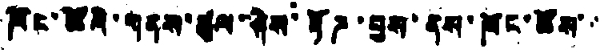ཁོང་ཚོའི་གནས་ཚུལ་ཤེས་རྟོཌ་བྱས་ནས་ཁོང་ཚོས་་
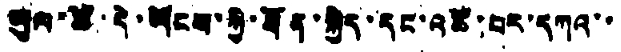ཡུལ་ཚོ་དེ་ཡོངས་ཀྱི་ཐོན་སྐྱེད་དང་འཚོ་བར་དཀའ་་
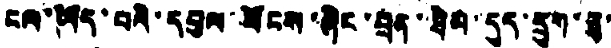ངལ་ཡོད་པའི་དབུལ་ཕོངས་ཞིང་བྲན་ཐེམ་དུད་དྲུག་ཅུ་
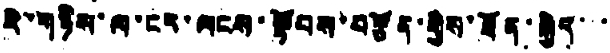རེ་གཉིས་ལ་ངར་ལངས་སྟོབས་བརྩོན་གྱིས་ཐོན་སྐྱེད་་་
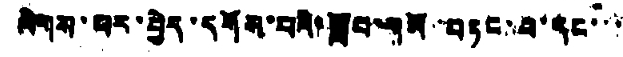ལེགས་ལར་བྱེར་དགོས་པའི་སློབ་གསོ་བཏང་བ་དང་་་
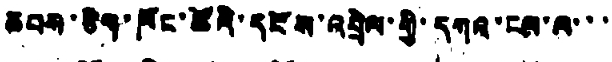ཆབས་ཅིག་ཁོང་ཚོའི་དངས་འབྲེལ་གྱི་དགའ་ངལ་ལ་་་
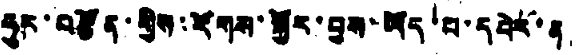ཧུར་བརྩོན་གྱིས་རོགས་སྐྱོར་བྱས་ཡོད་པ་དཔེར་ན།
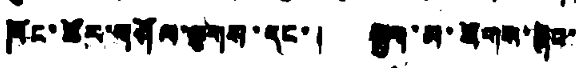ཁོང་ཚོར་གཤོལ་ལྕགས་དང་། སྦྱག་མ་སོགས་ཞིང་་་
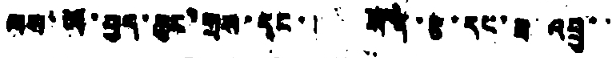ལས་ཡོ་བྱད་ཆུང་གྲས་དང་། སོན་རྩ་དང་ཟ་འབྲུ་་
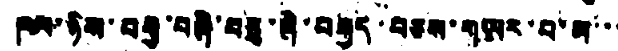ཁས་ཉིས་བརྒྱ་བཞི་བཅུ་ཞེ་བརྒྱད་བཅས་གཡར་བ་མ་་་
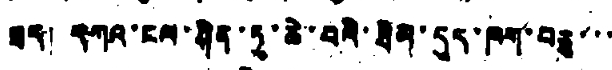ཟད། དཀའ་ངལ་ཤིན་ཏུ་ཆེ་བའི་ཐེམ་དུད་ཁག་བཅུ་་་
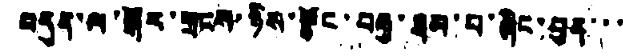བདུན་ལ་སྒོར་གྲངས་ཉིས་སྟོང་བརྒྱ་ཐམ་པ་ཞིང་བུན་་་
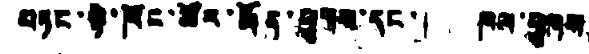བཏང་སྟེ་ཁོང་ཚོར་རྨོན་ཕྱུགས་དང་། ཁལ་ཕྱུགས
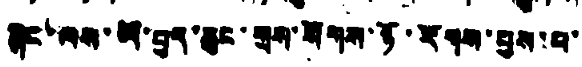ཞིང་ལས་ཡོ་བྱད་ཆུང་གྲས་སོགས་ཉོ་རོགས་བྱས་པ་
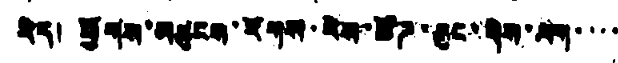རེད། ཕྱོགས་མཚུངས་རོགས་རེས་ཚོཌ་ཆུང་གིས་ལག་་་་
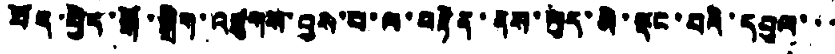བོད་བྱེད་སྒོ་སྒྲིག་འཛུགས་བྱས་པ་ལ་བརྟེན་ནས་བུད་མེ་ལྡང་བའི་དབུལ་་་
